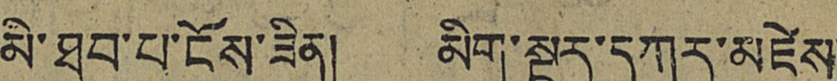མི་ཐུབ་པ་ངོས་ཟིན། མིག་སྔར་དཀར་མཛེས་
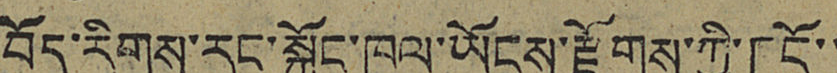བོད་རིགས་རང་སྐྱོང་ཁུལ་ཡོངས་རྫོགས་ཀྱི་「ངོ་་
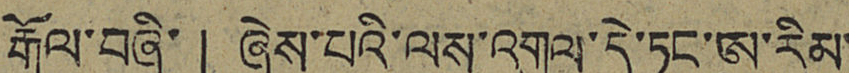རྒོལ་བཞི་」ཞེས་པའི་ལས་འགུལ་དེ་ཏང་ཨུ་རིམ་
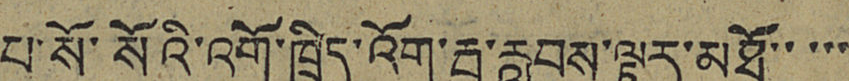པ་སོ་སོའི་འགོ་ཁྲིད་འོག་རྦ་རླབས་ལྟར་མཐོ་་་་་
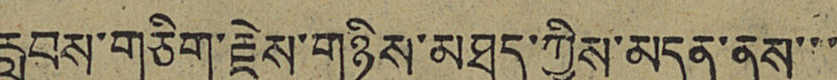རླབས་གཅིག་རྗེས་གཉིས་མཐུད་ཀྱིས་མདུན་ནས་་་
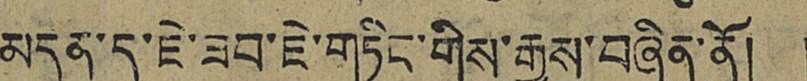མདུན་དུ་ཇེ་ཟབ་ཇེ་གཏིང་གིས་རྒྱས་བཞིན་ནོ། །
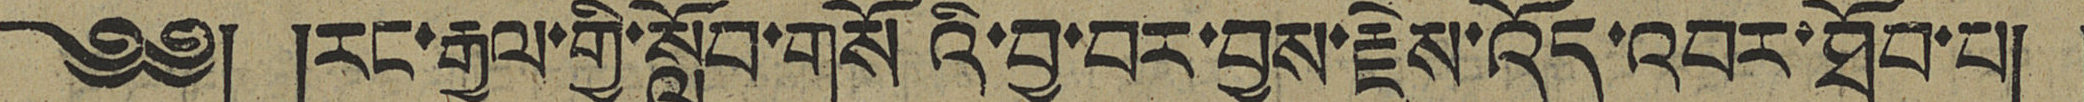༄༅། །རང་རྒྱལ་གྱི་སློབ་གསོའི་བྱ་བར་བྱས་རྗེས་འོད་འབར་ཐོབ་པ། །
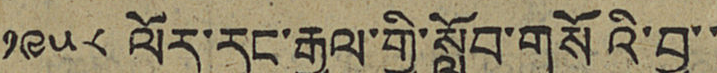༡༩༥༨ ལོར་རང་རྒྱལ་གྱི་སློབ་གསོའི་བྱ་་
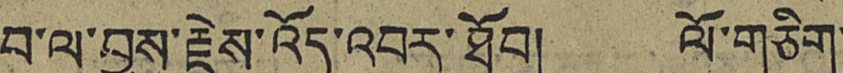བ་ལ་བྱས་རྗེས་འོད་འབར་ཐོབ། ལོ་གཅིག་
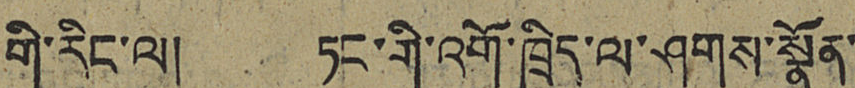གི་རིང་ལ། ཏང་གི་འགོ་ཁྲིད་ལ་ཤུགས་སྣོན་
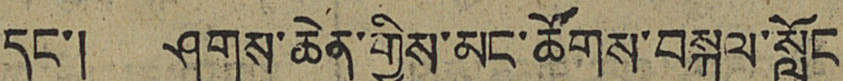དང་། ཤུགས་ཆེན་གྱིས་མང་ཚོགས་བསྐུལ་སློང་
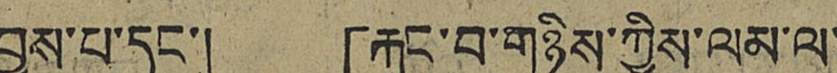བྱས་པ་དང་། 「རྐང་བ་གཉིས་ཀྱིས་ལམ་ལ་
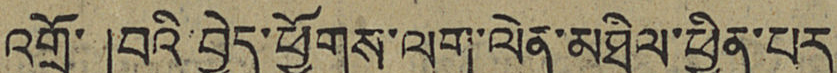འགྲོ་」བའི་བྱེད་ཕྱོགས་ལག་ལེན་མཐིལ་ཕྱིན་པར་
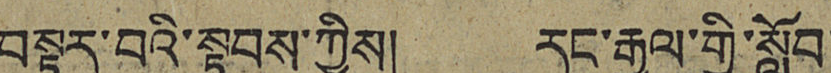བསྟར་བའི་སྟབས་ཀྱིས། རང་རྒྱལ་གྱི་སློབ་
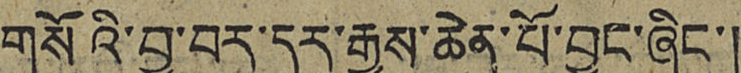གསོའི་བྱ་བར་དར་རྒྱས་ཆེན་པོ་བྱུང་ཞིང་།
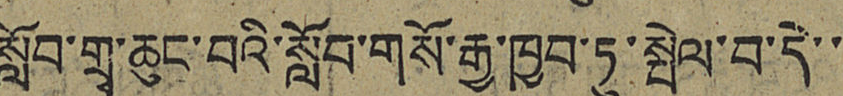སློབ་གྲྭ་ཆུང་བའི་སློབ་གསོ་རྒྱ་ཁྱབ་ཏུ་སྤེལ་བ་དེ་་
